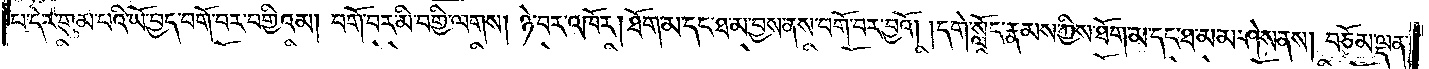པ་དེར་གུམ་པའི་ཡོ་བྱད་བགོ་བར་བགྱིའམ། བགོ་བར་མི་བགྱི་ལགས། ཉེ་བར་འཁོར། ཐོག་མ་དང་ཐ་མ་བྱས་ནས་བགོ་བར་བྱའོ། །དགེ་སློང་རྣམས་ཀྱིས་ཐོག་མ་དང་ཐ་མ་མ་ཤེས་ནས། བཅོམ་ལྡན་
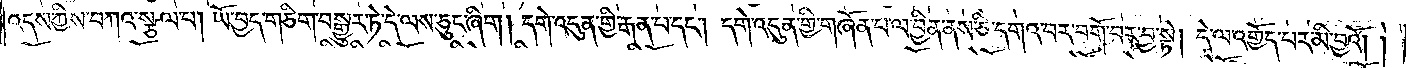འདས་ཀྱིས་བཀའ་སྩལ་པ། ཡོ་བྱད་གཅིག་བསྒྱུར་ཏེ་དེ་ལས་ཅུང་ཞིག། དགེ་འདུན་གྱི་རྒན་པ་དང༌། དགེ་འདུན་གྱི་གཞོན་པ་ལ་བྱིན་ནས་ཅི་དགའ་བར་བགོ་བར་བྱ་སྟེ། དེ་ལ་འགྱོད་པར་མི་བྱའོ། །
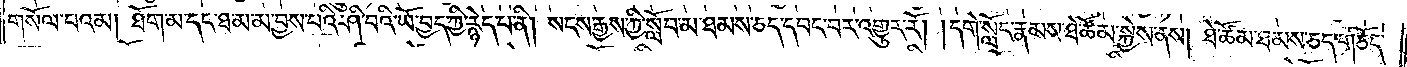གསོལ་བའམ། ཐོག་མ་དང་ཐ་མ་མ་བྱས་པའི་ཤི་བའི་ཡོ་བྱད་ཀྱི་རྙེད་པ་ནི། སངས་རྒྱས་ཀྱི་སློབ་མ་ཐམས་ཅད་དབང་བར་འགྱུར་རོ། །དགེ་སློང་རྣམས་ཐེ་ཚོམ་སྐྱེས་ནས། ཐེ་ཚོམ་ཐམས་ཅད་གཅོད་
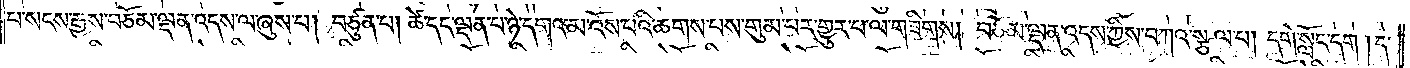པ་སངས་རྒྱས་བཅོམ་ལྡན་འདས་ལ་ཞུས་པ། བཙུན་པ། ཚེ་དང་ལྡན་པ་ཉེ་དགའ་མ་འོས་པའི་ཆགས་པས་གུམ་པར་གྱུར་པ་ལ་གཟིགས། བཅོམ་ལྡན་འདས་ཀྱིས་བཀའ་སྩལ་པ། དགེ་སློང་དག །ད་
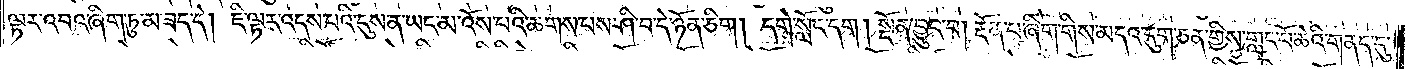ལྟར་འབའ་ཞིག་ཏུ་མ་ཟད་དེ། ཇི་ལྟར་འདས་པའི་དུས་ན་ཡང་མ་འོས་པའི་ཆགས་པས་ཤི་བ་དེ་ཉོན་ཅིག། དགེ་སློང་དག། སྔོན་བྱུང་བ། རྔོན་པ་ཞིག་གིས་མདའ་དུག་ཅན་གྱིས་གླང་པོ་ཆེའི་གནད་དུ་
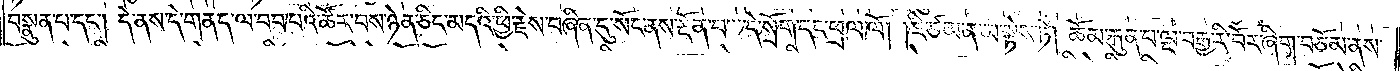བསྣུན་པ་དང༌། དེ་ནས་དེ་གནད་ལ་བབ་པའི་ཚོར་བས་ཉེན་ཅིང་མདའི་ཕྱི་རྗེས་བཞིན་དུ་སོང་ནས་རྔོན་པ་དེ་སྲོག་དང་ཕྲལ་ལོ། །ཇི་ཙམ་ན་མ་སྟེས་ཏེ། ཆོམ་རྐུན་པ་ལྔ་བརྒྱ་རི་བོར་ཞིག་བཅོམ་ནས་
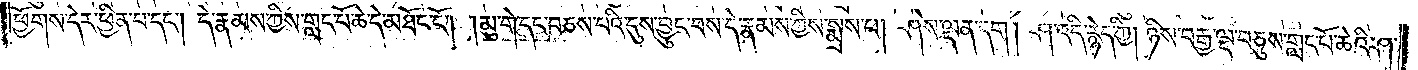ཕྱོགས་དེར་ཕྱིན་པ་དང༌། དེ་རྣམས་ཀྱིས་གླང་པོ་ཆེ་དེ་མཐོང་ངོ༌། །མུ་གེ་དང་བཅས་པའི་དུས་བྱུང་བས་དེ་རྣམས་ཀྱིས་སྨྲས་པ། ཤེས་ལྡན་དག། ཤ་འདི་རྙེད་ཀྱི། ཉིས་བརྒྱ་ལྔ་བཅུས་གླང་པོ་ཆེའི་ཤ་
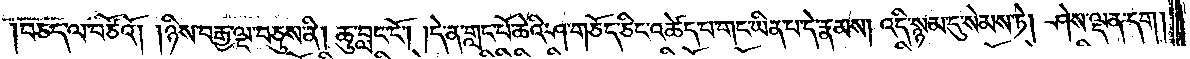བཅད་ལ་བཙོའོ། །ཉིས་བརྒྱ་ལྔ་བཅུས་ནི། ཆུ་བླང་ངོ༌། །དེ་ན་གླང་པོ་ཆེའི་ཤ་གཅོད་ཅིང་འཚེད་པ་གང་ཡིན་པ་དེ་རྣམས། འདི་སྙམ་དུ་སེམས་ཏེ། ཤེས་ལྡན་དག།
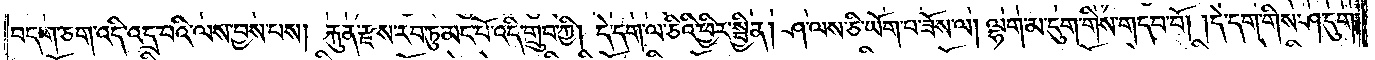བདག་ཅག་འདི་འདྲ་བའི་ལས་བྱས་པས། རྐུན་རྫས་རབ་ཏུ་མང་པོ་འདི་གྲུབ་ཀྱི། དེ་དག་ལ་ཅིའི་ཕྱིར་སྦྱིན། ཤ་ལས་ཅི་ཡོག་པ་ཟོས་ལ། ལྷག་མ་དུག་གིས་གདབ་པོ། །དེ་དག་གིས་ཤ་དུག་
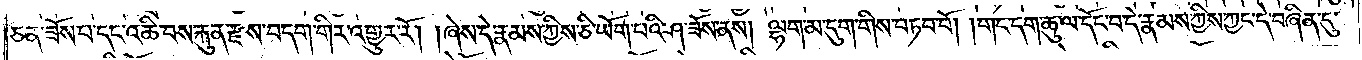ཅན་ཟོས་པ་དང་འཆི་བས་རྐུན་རྫས་བདག་གིར་འགྱུར་རོ། །ཞེས་དེ་རྣམས་ཀྱིས་ཅི་ཡོག་པའི་ཤ་ཟོས་ནས། ལྷག་མ་དུག་གིས་བཏབ་བོ། །གང་དག་ཆུ་ལ་དོང་བ་དེ་རྣམས་ཀྱིས་ཀྱང་དེ་བཞིན་དུ་
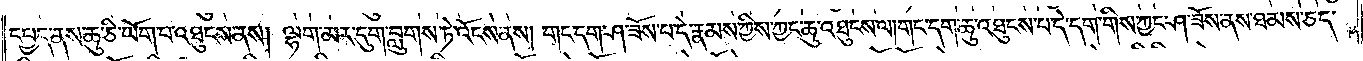དཔྱད་ནས་ཆུ་ཅི་ཡོག་པ་འཐུངས་ནས། ལྷག་མར་དུག་བླུགས་ཏེ་འོངས་ནས། གང་དག་ཤ་ཟོས་པ་དེ་རྣམས་ཀྱིས་ཀྱང་ཆུ་འཐུངས་ལ། གང་དག་ཆུ་འཐུངས་པ་དེ་དག་གིས་ཀྱང་ཤ་ཟོས་ནས་ཐམས་ཅད་
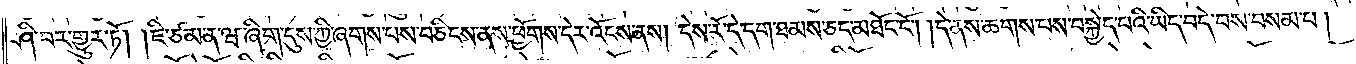ཤི་བར་གྱུར་ཏོ། །ཇི་ཙམ་ན་ཝ་ཞིག་དུས་ཀྱི་ཞགས་པས་བཅིངས་ནས་ཕྱོགས་དེར་འོངས་ནས། དེས་རོ་དེ་དག་ཐམས་ཅད་མཐོང་ངོ༌། །དེ་ནས་ཆགས་པས་བསྐྱེད་པའི་ཡིད་བདེ་བས་བསམ་པ།
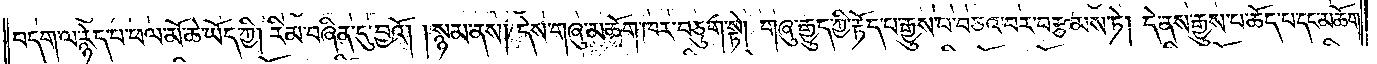བདག་ལ་རྙེད་པ་ཕལ་མོ་ཆེ་ཡོད་ཀྱི། རིམ་བཞིན་དུ་བྱའོ། །སྙམ་ནས། དེས་གཞུ་མཆོག་ཁར་བཅུག་སྟེ། གཞུ་རྒྱུད་ཀྱི་རྟོད་པ་རྒྱུས་པ་བཅའ་བར་བརྩམས་ཏེ། དེ་ནས་རྒྱུས་པ་ཆོད་པ་དང་མཆོག་
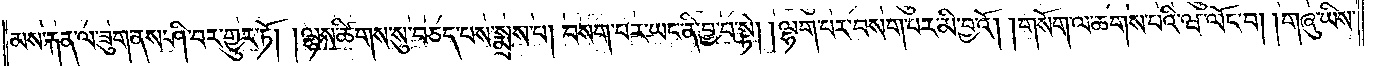མས་རྐན་ལ་ཟུག་ནས་ཤི་བར་གྱུར་ཏོ། །ལྷས་ཚིགས་སུ་བཅད་པས་སྨྲས་པ། བསག་པར་ཡང་ནི་བྱ་བ་སྟེ། །ལྷག་པར་བསག་པར་མི་བྱའོ། །གསོག་ལ་ཆགས་པའི་ཝ་ལོང་བ། །གཞུ་ཡིས་
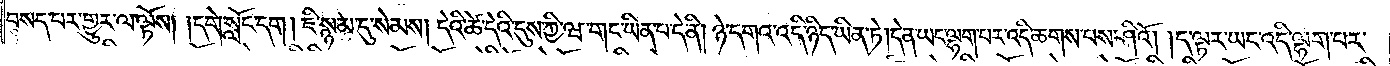བསད་པར་གྱུར་ལ་ལྟོས། །དགེ་སློང་དག། ཇི་སྙམ་དུ་སེམས། དེའི་ཚེ་དེའི་དུས་ཀྱི་ཝ་གང་ཡིན་པ་དེ་ནི། ཉེ་དགའ་འདི་ཉིད་ཡིན་ཏེ། དེ་ན་ཡང་ལྷག་པར་འདི་ཆགས་པས་ཤིའོ། །ད་ལྟར་ཡང་འདི་ལྷག་པར་
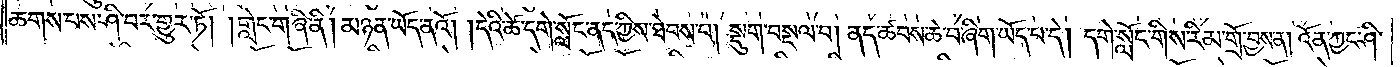ཆགས་པས་ཤི་བར་གྱུར་ཏོ། །གླེང་གཞི་ནི། མཉན་ཡོད་ནའོ། །དེའི་ཚེ་དགེ་སློང་ནད་ཀྱིས་ཐེབས་པ། སྡུག་བསྔལ་བ། ནད་ཚབས་ཆེ་བ་ཞིག་ཡོད་པ་དེ། དགེ་སློང་གིས་རིམ་གྲོ་བྱས་ན། འོན་ཀྱང་ཤི་
